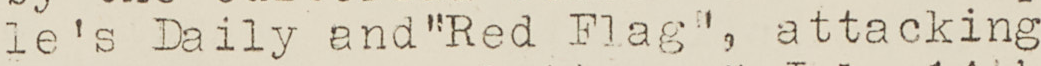le's Daily and "Red Flag", attacking
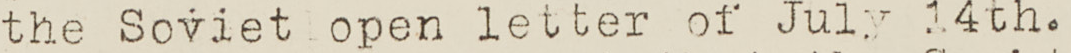the Soviet open letter of July 14th.
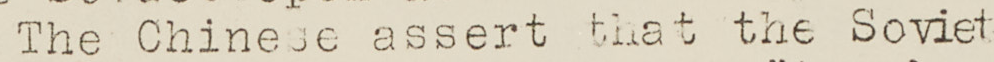The Chinese assert that the Soviet
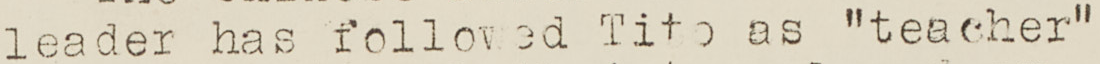leader has followed Tito as "teacher"
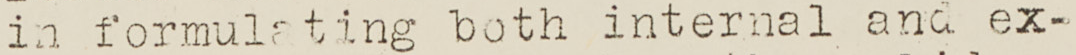in formulating both internal and ex-
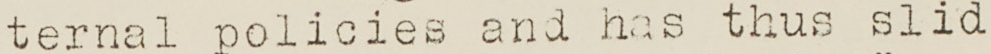ternal polices and has thus slid
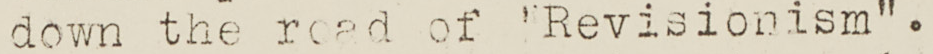down the road of "Revisionism".
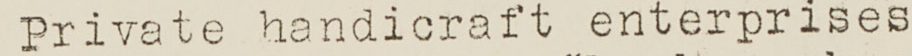Private handicraft enterprises
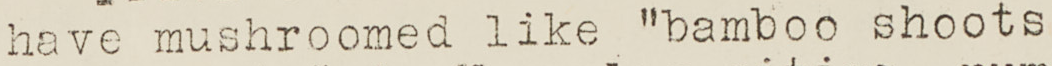have mushroomed like "bamboo shoots
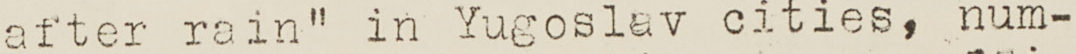after rain" in Yugoslav cities, num-
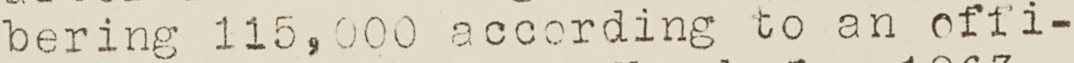bering 115,000 according to an offi-
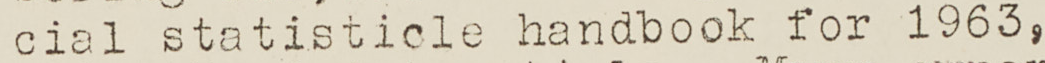cial statisticle handbook for 1963,
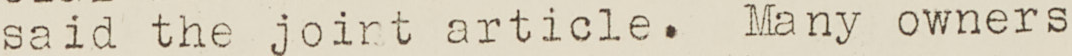said the joint article. Many owners
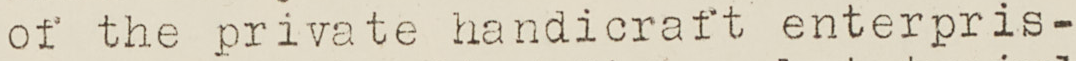of the private handicraft enterpris-
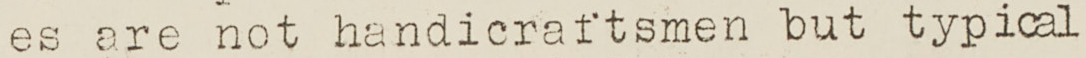es are not handicraftsmen but typical
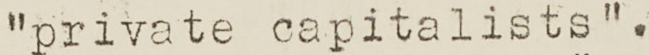"private capitalists".
